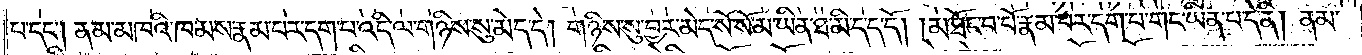པ་དང༌། ནམ་མཁའི་ཁམས་རྣམ་པར་དག་པ་འདི་ལ་གཉིས་སུ་མེད་དེ། གཉིས་སུ་བྱར་མེད་སོ་སོ་མ་ཡིན་ཐ་མི་དད་དོ། །མཐོང་བ་པོ་རྣམ་པར་དག་པ་གང་ཡིན་པ་དེ་ནི། ནམ་
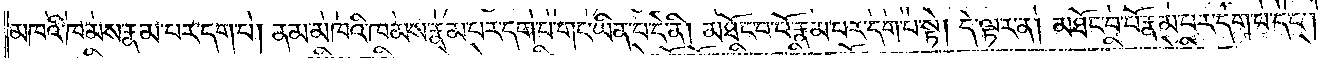མཁའི་ཁམས་རྣམ་པར་དག་པ། ནམ་མཁའི་ཁམས་རྣམ་པར་དག་པ་གང་ཡིན་པ་དེ་ནི། མཐོང་བ་པོ་རྣམ་པར་དག་པ་སྟེ། དེ་ལྟར་ན། མཐོང་བ་པོ་རྣམ་པར་དག་པ་དང༌།
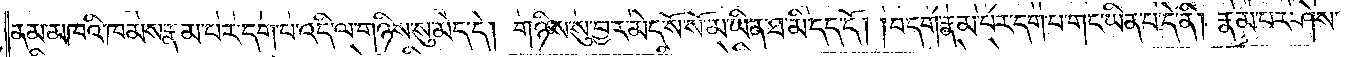ནམ་མཁའི་ཁམས་རྣམ་པར་དག་པ་འདི་ལ་གཉིས་སུ་མེད་དེ། གཉིས་སུ་བྱར་མེད་སོ་སོ་མ་ཡིན་ཐ་མི་དད་དོ། །བདག་རྣམ་པར་དག་པ་གང་ཡིན་པ་དེ་ནི། རྣམ་པར་ཤེས་
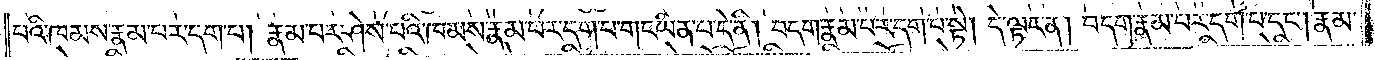པའི་ཁམས་རྣམ་པར་དག་པ། རྣམ་པར་ཤེས་པའི་ཁམས་རྣམ་པར་དག་པ་གང་ཡིན་པ་དེ་ནི། བདག་རྣམ་པར་དག་པ་སྟེ། དེ་ལྟར་ན། བདག་རྣམ་པར་དག་པ་དང༌། རྣམ་
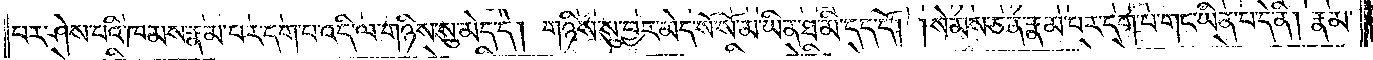པར་ཤེས་པའི་ཁམས་རྣམ་པར་དག་པ་འདི་ལ་གཉིས་སུ་མེད་དེ། གཉིས་སུ་བྱར་མེད་སོ་སོ་མ་ཡིན་ཐ་མི་དད་དོ། །སེམས་ཅན་རྣམ་པར་དག་པ་གང་ཡིན་པ་དེ་ནི། རྣམ་
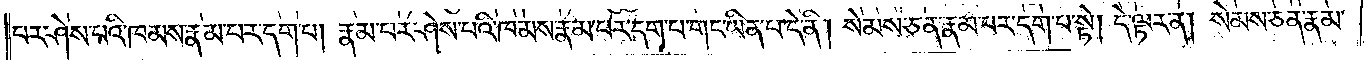པར་ཤེས་པའི་ཁམས་རྣམ་པར་དག་པ། རྣམ་པར་ཤེས་པའི་ཁམས་རྣམ་པར་དག་པ་གང་ཡིན་པ་དེ་ནི། སེམས་ཅན་རྣམ་པར་དག་པ་སྟེ། དེ་ལྟར་ན། སེམས་ཅན་རྣམ་
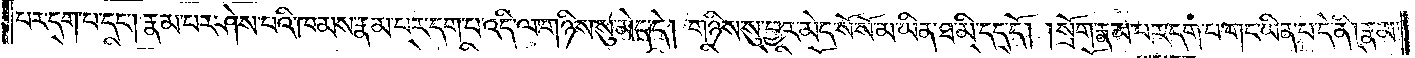པར་དག་པ་དང༌། རྣམ་པར་ཤེས་པའི་ཁམས་རྣམ་པར་དག་པ་འདི་ལ་གཉིས་སུ་མེད་དེ། གཉིས་སུ་བྱར་མེད་སོ་སོ་མ་ཡིན་ཐ་མི་དད་དོ། །སྲོག་རྣམ་པར་དག་པ་གང་ཡིན་པ་དེ་ནི། རྣམ་
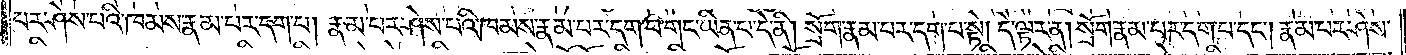པར་ཤེས་པའི་ཁམས་རྣམ་པར་དག་པ། རྣམ་པར་ཤེས་པའི་ཁམས་རྣམ་པར་དག་པ་གང་ཡིན་པ་དེ་ནི། སྲོག་རྣམ་པར་དག་པ་སྟེ། དེ་ལྟར་ན། སྲོག་རྣམ་པར་དག་པ་དང༌། རྣམ་པར་ཤེས་
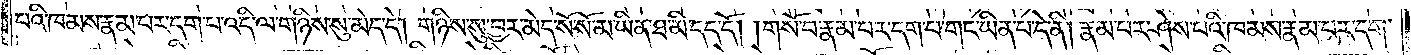པའི་ཁམས་རྣམ་པར་དག་པའི་དེ་ལ་གཉིས་སུ་མེད་དེ། གཉིས་སུ་བྱར་མེད་སོ་སོ་མ་ཡིན་ཐ་མི་དད་དོ། གསོ་བ་རྣམ་པར་དག་པ་གང་ཡིན་པ་དེ་ནི། རྣམ་པར་ཤེས་པའི་ཁམས་རྣམ་པར་དག་
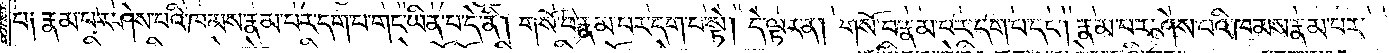པ༑ རྣམ་པར་ཤེས་པའི་ཁམས་རྣམ་པར་དག་པ་གང་ཡིན་པ་དེ་ནི། གསོ་བ་རྣམ་བར་དག་པ་སྟེ། དེ་ལྟར་ན། གསོ་བ་རྣམ་པར་དག་པ་དང༌། རྣམ་པར་ཤེས་པའི་ཁམས་རྣམ་པར་
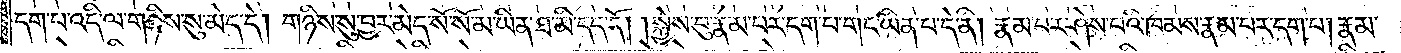དག་པ་འདི་ལ་གཉིས་སུ་མེད་དེ། གཉིས་སུ་བྱར་མེད་སོ་སོ་མ་ཡིན་ཐ་མི་དད་དོ། །སྐྱེས་བུ་རྣམ་པར་དག་པ་གང་ཡིན་པ་དེ་ནི། རྣམ་པར་ཤེས་པའི་ཁམས་རྣམ་པར་དག་པ། རྣམ་
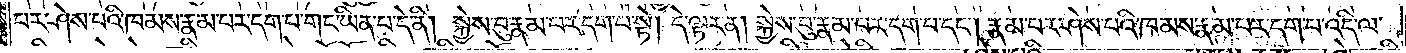པར་ཤེས་པའི་ཁམས་རྣམ་པར་དག་པ་གང་ཡིན་པ་དེ་ནི། སྐྱེས་བུ་རྣམ་པར་དག་པ་སྟེ། དེ་ལྟར་ན། སྐྱེས་བུ་རྣམ་པར་དག་པ་དང༌། རྣམ་པར་ཤེས་པའི་ཁམས་རྣམ་པར་དག་པ་འདི་ལ་
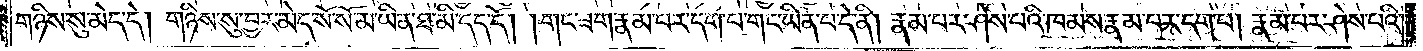གཉིས་སུ་མེད་དེ། གཉིས་སུ་བྱར་མེད་སོ་སོ་མ་ཡིན་ཐ་མི་དད་དོ། །གང་ཟག་རྣམ་པར་དག་པ་གང་ཡིན་པ་དེ་ནི། རྣམ་པར་ཤེས་པའི་ཁམས་རྣམ་པར་དག་པ། རྣམ་པར་ཤེས་པའི་
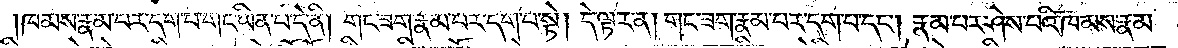ཁམས་རྣམ་པར་དག་པ་གང་ཡིན་པ་དེ་ནི། གང་ཟག་རྣམ་པར་དག་པ་སྟེ། དེ་ལྟར་ན། གང་ཟག་རྣམ་པར་དག་པ་དང༌། རྣམ་པར་ཤེས་པའི་ཁམས་རྣམ་
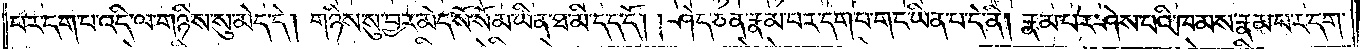པར་དག་པ་འདི་ལ་གཉིས་སུ་མེད་དེ། གཉིས་སུ་བྱར་མེད་སོ་སོ་མ་ཡིན་ཐ་མི་དད་དོ། །ཤེད་ཅན་རྣམ་པར་དག་པ་གང་ཡིན་པ་དེ་ནི། རྣམ་པར་ཤེས་པའི་ཁམས་རྣམ་པར་དག་
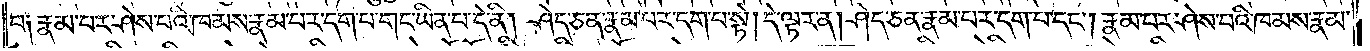པ༑ རྣམ་པར་ཤེས་པའི་ཁམས་རྣམ་པར་དག་པ་གང་ཡིན་པ་དེ་ནི། ཤེད་ཅན་རྣམ་པར་དག་པ་སྟེ། དེ་ལྟར་ན། ཤེད་ཅན་རྣམ་པར་དག་པ་དང༌། རྣམ་པར་ཤེས་པའི་ཁམས་རྣམ་
